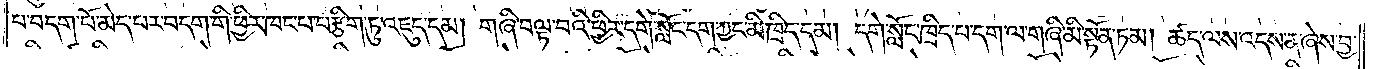པ་བདག་པོ་མེད་པར་བདག་གི་ཕྱིར་ཁང་པ་བརྩིག་ཏུ་འཇུད་དམ། གཞི་བལྟ་བའི་ཕྱིར་དགེ་སློང་དག་ཀྱང་མི་ཁྲིད་དམ། དགེ་སློང་ཁྲིད་པ་དག་ལ་གཞི་མི་སྟོན་ཏམ། ཚད་ལས་འདས་ན་ཞེས་བྱ་
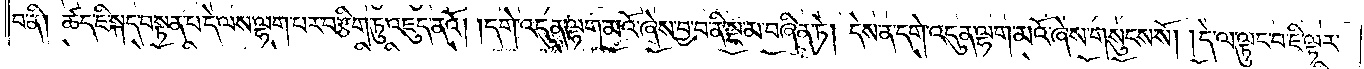བ་ནི། ཚད་ཇི་སྐད་བསྟན་པ་དེ་ལས་ལྷག་པར་བརྩིག་ཏུ་འཇུད་ནའོ། །དགེ་འདུན་ལྷག་མའོ་ཞེས་བྱ་བ་ནི་སྔ་མ་བཞིན་ཏེ། དེས་ན་དགེ་འདུན་ལྷག་མའོ་ཞེས་གསུངས་སོ། །དེ་ལ་ལྟུང་བ་ཇི་ལྟར་
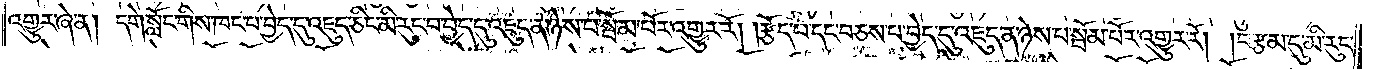འགྱུར་ཞེ་ན། དགེ་སློང་གིས་ཁང་པ་བྱེད་དུ་འཇུད་ཅིང་མི་རུང་བ་བྱེད་དུ་འཇུད་ན་ཉེས་པ་སྦོམ་པོར་འགྱུར་རོ། །རྩོད་པ་དང་བཅས་པ་བྱེད་དུ་འཇུད་ན་ཉེས་པ་སྦོམ་པོར་འགྱུར་རོ། །བརྩམ་དུ་མི་རུང་
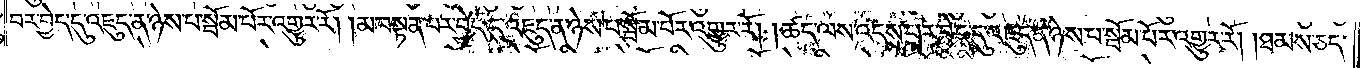བར་བྱེད་དུ་འཇུད་ན་ཉེས་པ་སྦོམ་པོར་འགྱུར་རོ། །མ་བསྟན་པར་བྱེད་དུ་འཇུད་ན་ཉེས་པ་སྦོམ་པོར་འགྱུར་རོ། །ཚད་ལས་འདས་པར་བྱེད་དུ་འཇུད་ན་ཉེས་པ་སྦོམ་པོར་འགྱུར་རོ། །ཐམས་ཅད་
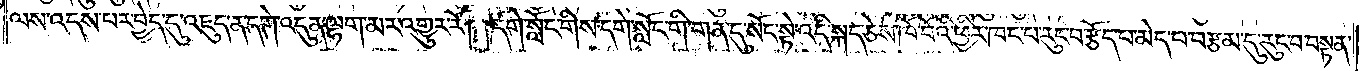ལས་འདས་པར་བྱེད་དུ་འཇུད་ན་དགེ་འདུན་ལྷག་མར་འགྱུར་རོ། །དགེ་སློང་གིས་དགེ་སློང་གི་གན་དུ་སོང་སྟེ་འདི་སྐད་ཅེས་ཁོ་བོའི་ཕྱིར་ཁང་པ་རུང་བ་རྩོད་པ་མེད་པ་བརྩམ་དུ་རུང་བ་བསྟན་
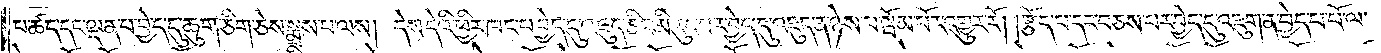པ་ཚད་དང་ལྡན་པ་བྱེད་དུ་ཆུག་ཅིག་ཅེས་སྨྲས་པ་ལས། དེས་དེའི་ཕྱིར་ཁང་པ་བྱེད་དུ་འཇུད་ཅིང་མི་རུང་བར་བྱེད་དུ་འཇུད་ན་ཉེས་པ་སྦོམ་པོར་འགྱུར་རོ། །རྩོད་པ་དང་བཅས་པར་བྱེད་དུ་འཇུག་ན་བྱེད་པ་པོ་ལ་
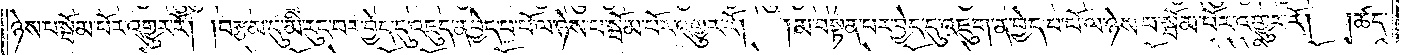ཉེས་པ་སྦོམ་པོར་འགྱུར་རོ། །བརྩམ་དུ་མི་རུང་བར་བྱེད་དུ་འཇུད་ན་བྱེད་པ་པོ་ལ་ཉེས་པ་སྦོམ་པོར་འགྱུར་རོ།  །མ་བསྟན་པར་བྱེད་དུ་འཇུག་ན་བྱེད་པ་པོ་ལ་ཉེས་པ་སྦོམ་པོར་འགྱུར་རོ  །ཚད་
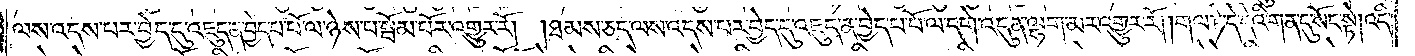ལས་འདས་པར་བྱེད་དུ་འཇུད་ན་བྱེད་པ་པོ་ལ་ཉེས་པ་སྦོམ་པོར་འགྱུར་རོ། །ཐམས་ཅད་ལས་འདས་པར་བྱེད་དུ་འཇུད་ན་བྱེད་པ་པོ་ལ་དགེ་འདུན་ལྷག་མར་འགྱུར་རོ། །གལ་ཏེ་དེ་དེའི་གན་དུ་སོང་སྟེ། འདི་
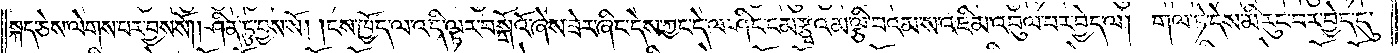སྐད་ཅེས་ལེགས་པར་བྱས་སོ། །ཤིན་ཏུ་བྱས་སོ། །ངས་ཁྱོད་ལ་འདི་ལྟར་བསྒོའོ་ཞེས་ཟེར་ཞིང་དེས་ཀྱང་དེ་ལ་ཤིང་ངམ་རྩྭའམ་ལྕི་བའམ་ས་འཇིམ་འབུལ་བར་བྱེད་ལ། གལ་ཏེ་དེས་མི་རུང་བར་བྱེད་དུ་
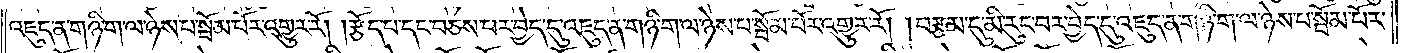འཇུད་ན་གཉི་ག་ལ་ཉེས་པ་སྦོམ་པོར་འགྱུར་རོ། །རྩོད་པ་དང་བཅས་པར་བྱེད་དུ་འཇུད་ན་གཉི་ག་ལ་ཉེས་པ་སྦོམ་པོར་འགྱུར་རོ། །བརྩམ་དུ་མི་རུང་བར་བྱེད་དུ་འཇུད་ན་གཉི་ག་ལ་ཉེས་པ་སྦོམ་པོར་
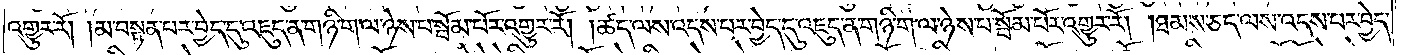འགྱུར་རོ། །མ་བསྟན་པར་བྱེད་དུ་འཇུད་ན་གཉི་ག་ལ་ཉེས་པ་སྦོམ་པོར་འགྱུར་རོ། །ཚད་ལས་འདས་པར་བྱེད་དུ་འཇུད་ན་གཉི་ག་ལ་ཉེས་པ་སྦོམ་པོར་འགྱུར་རོ། །ཐམས་ཅད་ལས་འདས་པར་བྱེད་
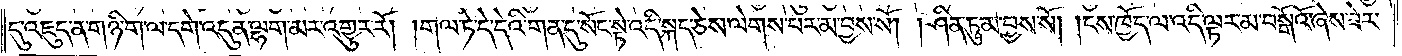དུ་འཇུད་ན་གཉི་ག་ལ་དགེ་འདུན་ལྷག་མར་འགྱུར་རོ། །གལ་ཏེ་དེ་དེའི་གན་དུ་སོང་སྟེ་འདི་སྐད་ཅེས་ལེགས་པར་མ་བྱས་སོ། །ཤིན་ཏུ་མ་བྱས་སོ། །ངས་ཁྱོད་ལ་འདི་ལྟར་མ་བསྒོའོ་ཞེས་ཟེར་
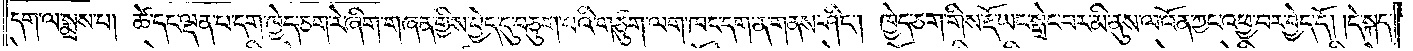དག་ལ་སྨྲས་པ། ཚེ་དང་ལྡན་པ་དག་ཁྱེད་ཅག་རེ་ཞིག་གཞན་གྱིས་བྱེད་དུ་བཅུག་པའི་གཙུག་ལག་ཁང་དག་ན་གནས་ཤིང༌། ཁྱེད་ཅག་གིས་རྡོ་ཡང་སྒྲེང་བར་མི་ནུས་ལ་འོན་ཀྱང་འཕྱ་བར་བྱེད་དོ། །དེ་སྐད་
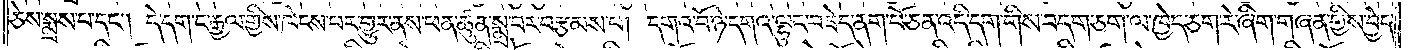ཅེས་སྨྲས་པ་དང༌། དེ་དག་ང་རྒྱལ་གྱིས་ཁེངས་པར་གྱུར་ནས་ཕན་ཚུན་སྨྲ་བར་བརྩམས་པ། དགའ་བོ་ཉེ་དགའ་ལྷུང་བཟེད་ནག་པོ་ཅན་འདི་དག་གིས་བདག་ཅག་ལ་ཁྱེད་ཅག་རེ་ཞིག་གཞན་གྱིས་བྱེད་
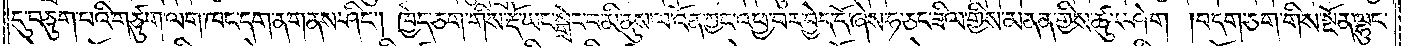དུ་བཅུག་པའི་གཙུག་ལག་ཁང་དག་ན་གནས་ཤིང༌། ཁྱེད་ཅག་གིས་རྡོ་ཡང་སྒྲེང་བ་མི་ནུས་ལ་འོན་ཀྱང་འཕྱ་བར་བྱེད་དོ་ཞེས་ཧ་ཅང་ཟིལ་གྱིས་མནན་གྱིས་ཚུར་ཤེག །བདག་ཅག་གིས་སྔོན་ལྷུང་
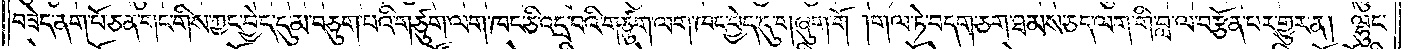བཟེད་ནག་པོ་ཅན་གང་གིས་ཀྱང་བྱེད་དུ་མ་བཅུག་པའི་གཙུག་ལག་ཁང་ཅི་འདྲ་བའི་གཙུག་ལག་ཁང་བྱེད་དུ་གཞུག་གོ །གལ་ཏེ་བདག་ཅག་ཐམས་ཅད་ལག་གི་བླ་ལ་བརྩོན་པར་གྱུར་ན། ལྷུང་
